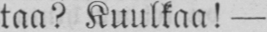taa? Kuulkaa!—
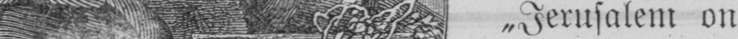˶Jerusalem on
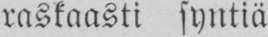raskaasti syntiä
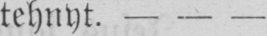tehnyt.-
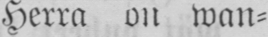Herra on wan-
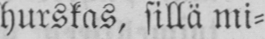hurskas, sillä mi-
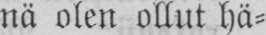nä olen ollut hä-
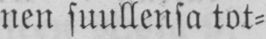nen suullensa tot-
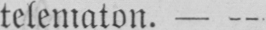telematon. —
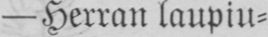— Herran laupiu-
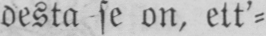desta se on, ett'-
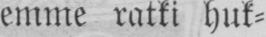emme ratki huk-
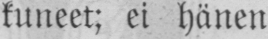kuneet; ei hänen
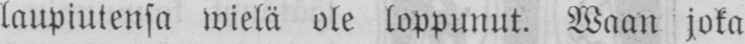laupiutensa wielä ole loppunut. Waan joka
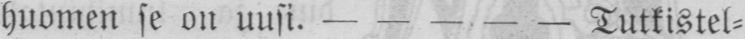huomen se on uusi.- Tutkistel-
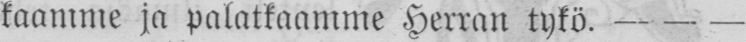kaamme ja palatkaamme Herran tykö. —
